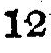12
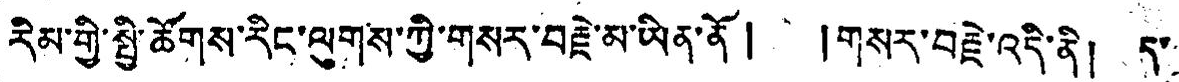རིམ་གྱི་སྤྱི་ཙོགས་རིང་ལུགས་ཀྱི་གསར་བརྗེ་མ་ཡིན་ནོ། །གསར་བརྗེ་འདི་ནི། ད་
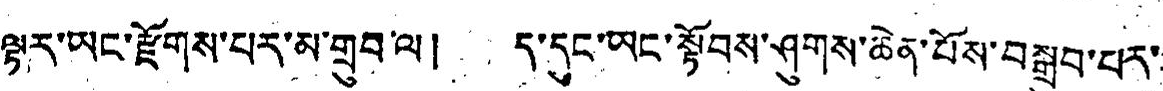ལྟར་ཡང་རྫོགས་པར་མ་གྲུབ་ལ། ད་དུང་ཡང་སྟོབས་ཤུགས་ཆེན་པོས་བསྒྲུབ་པར་
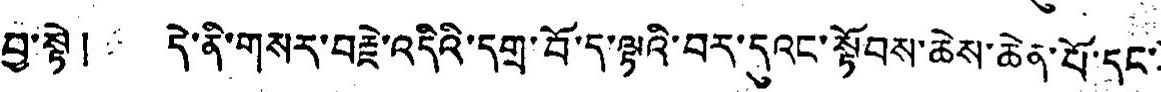བྱ་སྟེ། དེ་ནི་གསར་བརྗེ་འདིའི་དགྲ་བོ་ད་ལྟའི་བར་དུའང་སྟོབས་ཆེས་ཆེན་པོ་དང་
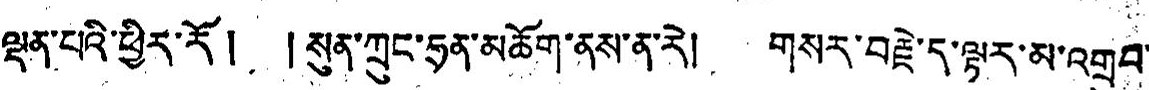ལྡན་པའི་ཕྱིར་རོ། །སུན་ཀྲུང་ཧྲན་མཆོག་ནས་ན་རེ། གསར་བརྗེ་ད་ལྟར་མ་འགྲུབ་
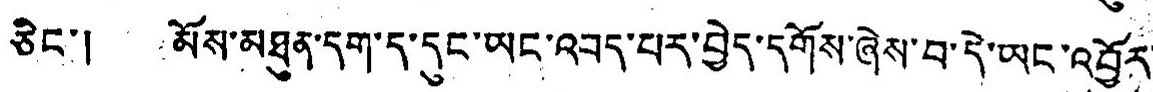ཅིང་། མོས་མཐུན་དག་ད་དུང་ཡང་འབད་པར་བྱེད་དགོས་ཞེས་བ་དེ་ཡང་འབྱོར་
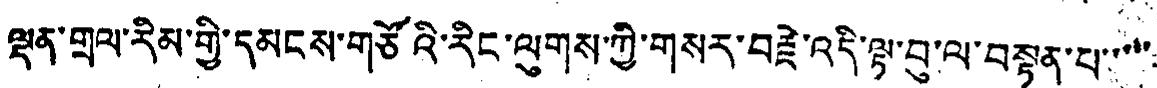ལྡན་གྲལ་རིམ་གྱི་དམངས་གཙོའི་རིང་ལུགས་ཀྱི་གསར་བརྗེ་འདི་ལྟ་བུ་ལ་བསྟན་པ་་་་་
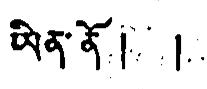ཡིན་ནོ ། །
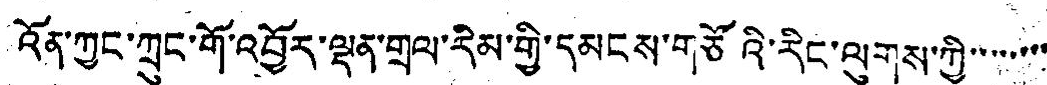འོན་ཀྱང་ཀྲུང་གོ་འབྱོར་ལྡན་གྲ་རིམ་གྱི་དམངས་གཙོའི་རིང་ལུགས་ཀྱི་་་་་་་་
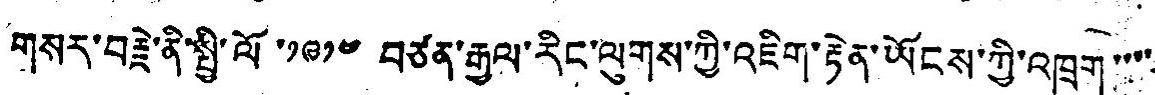གསར་བརྗེ་ནི་སྤྱི་ལོ་༡༩༡༤ བཙན་རྒྱལ་རིང་ལུགས་ཀྱི་འཇིག་རྟེན་ཡོངས་ཀྱི་འཁྲུག་་་་
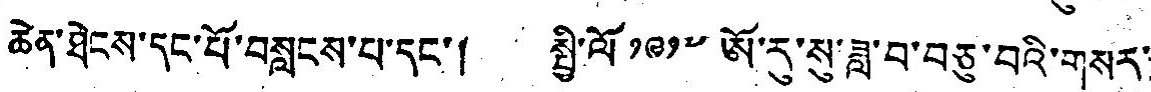ཆེན་ཐེངས་དང་པོ་བསླངས་པ་དང་། སྤྱི་ལོ ༡༩༡༧ ཨོ་རུ་སུ་ཟླ་བ་བཅུ་བའི་གསར་
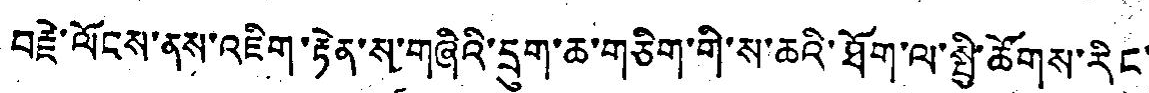བརྗེ་ལོངས་ནས་འཇིག་རྟེན་ས་གཞིའི་དྲུག་ཆ་གཅིག་གི་ས་ཆའི་ཐོག་ལ་སྤྱི་ཚོགས་རིང་
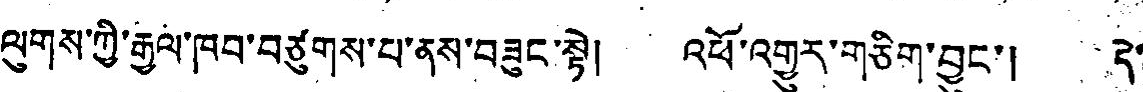ལུགས་ཀྱི་རྒྱལ་ཁབ་བཙུགས་པ་ནས་བཟུང་སྟེ། འཕོ་འགྱུར་གཅིག་བྱུང་། དེ་
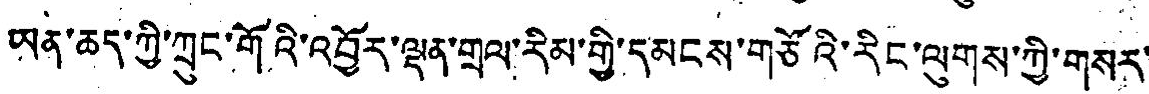ཡན་ཆད་ཀྱི་ཀྲུང་གོའི་འབྱོར་ལྡན་གྲལ་རིམ་གྱི་དམངས་གཙོའི་རིང་ལུགས་ཀྱི་གསར་
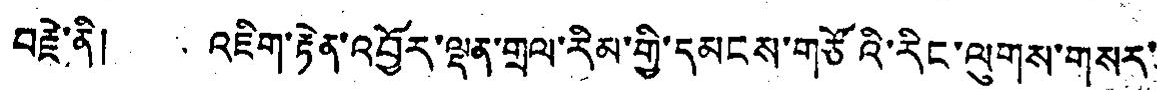བརྗེ་ནི། འཇིག་རྟེན་འབྱོར་ལྡན་གྲལ་རིམ་གྱི་དམངས་གཙོའི་རིང་ལུགས་གསར་
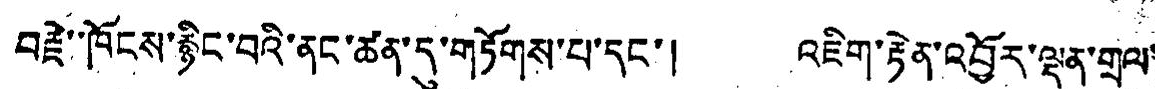བརྗེ་ཁོངས་རྙིང་བའི་ནང་ཚན་དུ་གཏོགས་པ་དང་། འཇིག་རྟེན་འབྱོར་ལྡན་གྲལ་
